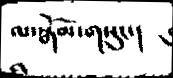ལ་སྒོམ་གསུང་།
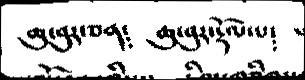ཆུ་བུར་ཅན༴   ཆུ་བུར་རྡོལ་པ༴
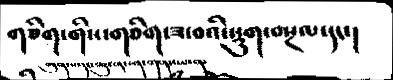གཅིག་གིས་གཅིག་ཟ་བའི་སྡུག་བསྔལ་དང་།
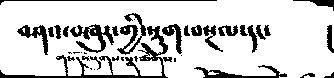བཤའ་བཞུར་གྱི་སྡུག་བསྔལ་དང་
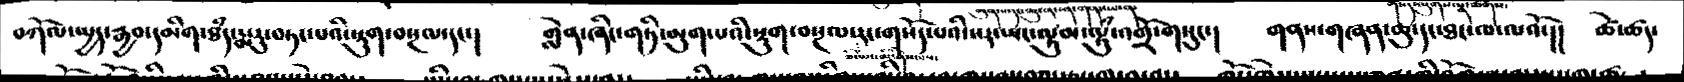བཀོལ་ཡྱད་རྒྱབ་དམིག་ཐཾད་སྨརུ་བཏང་པའི་སྡུག་བསྔལ་དང་།   གླེན་ཞིང་གཏི་མུག་པའི་སྡུག་བསྔལ་རང་གསོད་པའི་སར་ཡང་ལྟུམ་ལྟུཾ་འགྲོ་གསུང་།  གནས་གཞན་ཆུ་དང་ཐང་ལ་ལའོ་།།  ཚེ་ཚད་
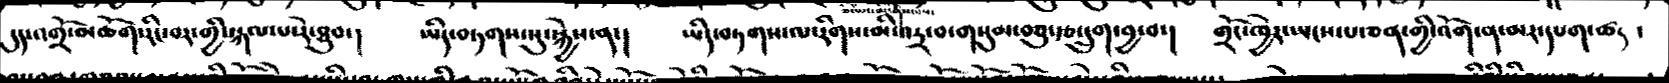དུད་འགྲོ་མཆོག་རིང་བར་གྱི་སྐལ་པ་ེ་ཐུབ་།  ཡིད་བཏགས་སུ་སྐྱེས་ན་།   ཡིད་བཏགས་ལ་རིགས་མི་འཏྲ་བ་གསུམ་བཅུ་རྩ་དྲུག་བྱ་བ་།   གྲོང་ཁྱེར་ཡངས་པ་ཅན་གྱི་འོག་ན་མར་དཔག་ཚད ་་
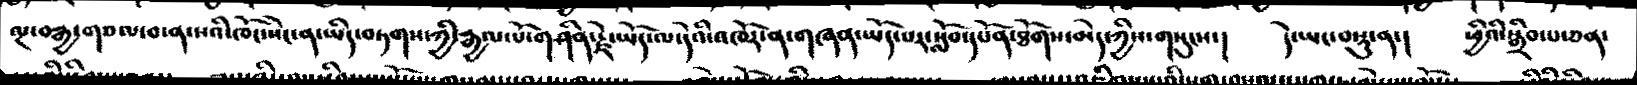ལྔ་བརྒྱ་གཅལ་བ་ན་སའི་ཁོང་སེང་ན་ཡིད་བཏགས་ཀྱི་རྒྱལ་པོ་གཤེན་རྗེ་ཡོད་ལ་དེའི་འཁོར་ན་གཞན་ཡོད་པར་སློབ་དཔོན་ཐོགས་མེད་ཀྱིས་གསུངས་།   དེ་ཡང་བསྡུ་ན་། ཕྱིའི་སྒྲིབ་པ་ཅན་
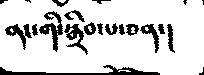ནང་གི་སྒྲིབ་པ་ཅན་།
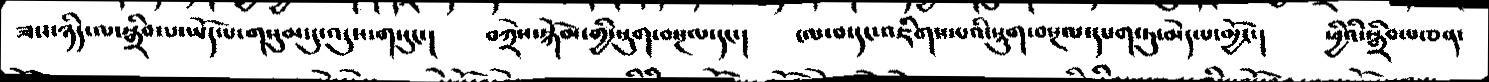ཟས་ཉིད་ལ་སྒྲིབ་པ་ཡོད་པ་གསུམ་དུ་འདུས་གསུང་།  བཀྲེས་སྐོམ་གྱི་སྡུག་བསྔ་དང་།  ངལ་བ་དང་འཇིགས་པའི་སྡུག་བསྔལ་དཔག་ཏུ་མེད་པ་མྱོང་།  ཕྱིའི་སྒྲིབ་པ་ཅན་
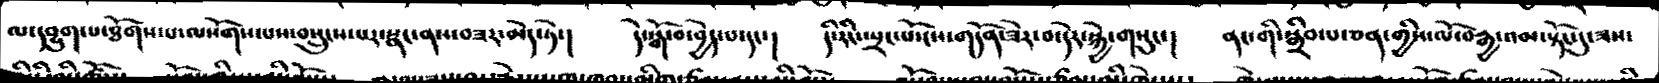ལ་དབྱུག་པ་ཐོགས་པ་ལསོགས་པས་བསྲུངས་པར་སྣང་ནས་བཟར་མེད་ཏེ་།  དེ་སྒོ་བ་བྱེད་པ་དང་།  དི་རིང་སྤྲང་པོ་ངས་གདོན་ཟེར་བ་དེར་སྐྱེ་གསུང་།  ནང་གི་སྒྲིབ་པ་ཅན་གྱིས་ལོ་བརྒྱ་འམ་སྟོང་དུ་ཟས་
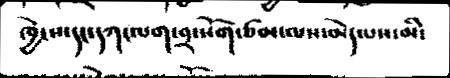ཁྱེ་ས་དང་དཀ་ལག་བྲ་སོག་ཙམ་ལས་མེད་པས་མི་
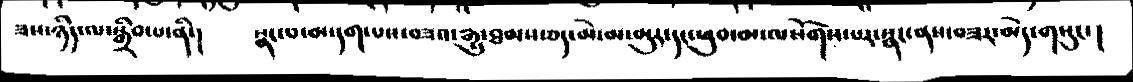ཟས་ཉིད་ལ་སྒྲིབ་པ་ནི་།  སྣང་པ་མ་དག་པས་བཟའ་རྒྱུ་ཐམས་ཅད་མེ་མ་མུར་དང་ཕུབ་མ་ལསོགས་པར་སྣང་ནས་བཟར་མེད་གསུང་།
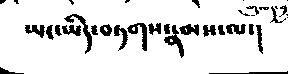ཡང་ཡིད་བཏགས་རྣམས་ལ་།
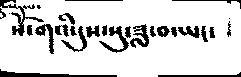སོ་གའི་དུས་སུ་ཟླ་བ་ཡང་
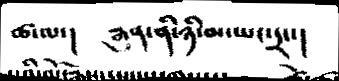ཚ་ལ་།   རྒུན་ནི་ཉི་མ་ཡང་དྲང་།
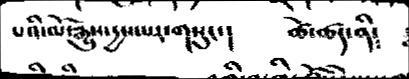པའི་ལོ་རྒྱུས་དྱས་པར་གསུང་།  ཚེ་ཚད་ནི༴
